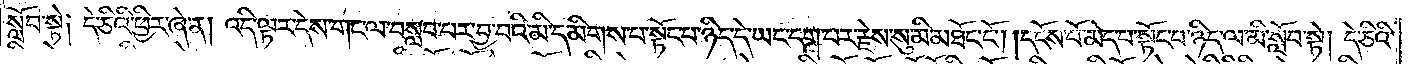སློབ་སྟེ། དེ་ཅིའི་ཕྱིར་ཞེ་ན། འདི་ལྟར་དེས་གང་ལ་བསླབ་པར་བྱ་བའི་མི་དམིགས་པ་སྟོང་པ་ཉིད་དེ་ཡང་དག་པར་རྗེས་སུ་མི་མཐོང་ངོ༌། །དངོས་པོ་མེད་པ་སྟོང་པ་ཉིད་ལ་མི་སློབ་སྟེ། དེ་ཅིའི་
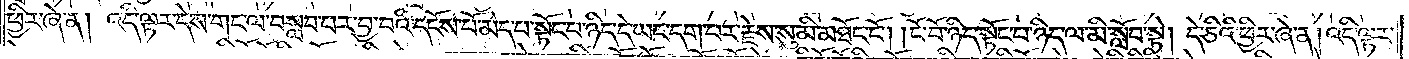ཕྱིར་ཞེ་ན། འདི་ལྟར་དེས་གང་ལ་བསླབ་པར་བྱ་བའི་དངོས་པོ་མེད་པ་སྟོང་པ་ཉིད་དེ་ཡང་དག་པར་རྗེས་སུ་མི་མཐོང་ངོ༌། །ངོ་བོ་ཉིད་སྟོང་པ་ཉིད་ལ་མི་སློབ་སྟེ། དེ་ཅིའི་ཕྱིར་ཞེ་ན། འདི་ལྟར་
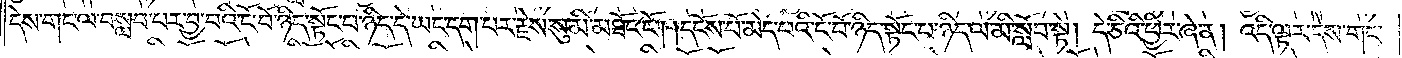དེས་གང་ལ་བསླབ་པར་བྱ་བའི་ངོ་བོ་ཉིད་སྟོང་པ་ཉིད་དེ་ཡང་དག་པར་རྗེས་སུ་མི་མཐོང་ངོ༌། །དངོས་པོ་མེད་པའི་ངོ་བོ་ཉིད་སྟོང་པ་ཉིད་ལ་མི་སློབ་སྟེ། དེ་ཅིའི་ཕྱིར་ཞེ་ན། འདི་ལྟར་དེས་གང་
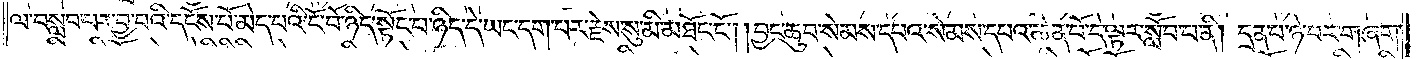ལ་བསླབ་པར་བྱ་བའི་དངོས་པོ་མེད་པའི་ངོ་བོ་ཉིད་སྟོང་པ་ཉིད་དེ་ཡང་དག་པར་རྗེས་སུ་མི་མཐོང་ངོ༌། །བྱང་ཆུབ་སེམས་དཔའ་སེམས་དཔའ་ཆེན་པོ་དེ་ལྟར་སློབ་པ་ནི། དྲན་པ་ཉེ་བར་གཞག་
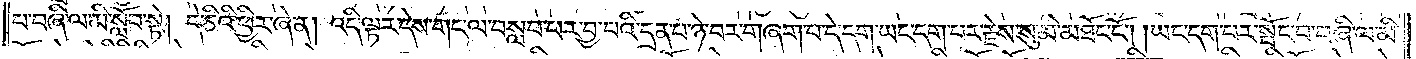པ་བཞི་ལ་མི་སློབ་སྟེ། དེ་ཅིའི་ཕྱིར་ཞེ་ན། འདི་ལྟར་དེས་གང་ལ་བསླབ་པར་བྱ་བའི་དྲན་པ་ཉེ་བར་བཞག་པ་དེ་དག་ཡང་དག་པར་རྗེས་སུ་མི་མཐོང་ངོ༌། །ཡང་དག་པར་སྤོང་བ་བཞི་ལ་མི་
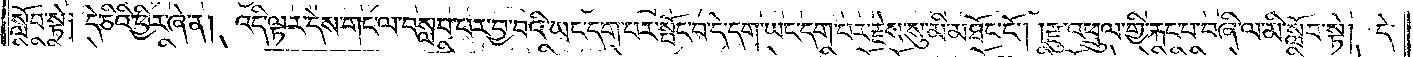སློབ་སྟེ། དེ་ཅིའི་ཕྱིར་ཞེ་ན། འདི་ལྟར་དེས་གང་ལ་བསླབ་པར་བྱ་བའི་ཡང་དག་པར་སྤོང་བ་དེ་དག་ཡང་དག་པར་རྗེས་སུ་མི་མཐོང་ངོ༌། །རྫུ་འཕྲུལ་གྱི་རྐང་པ་བཞི་ལ་མི་སློབ་སྟེ། དེ་
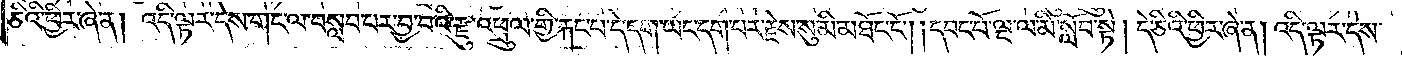ཅིའི་ཕྱིར་ཞེ་ན། འདི་ལྟར་དེས་གང་ལ་བསླབ་པར་བྱ་བའི་རྫུ་འཕྲུལ་གྱི་རྐང་པ་དེ་དག་ཡང་དག་པར་རྗེས་སུ་མི་མཐོང་ངོ༌། །དབང་པོ་ལྔ་ལ་མི་སློབ་སྟེ། དེ་ཅིའི་ཕྱིར་ཞེ་ན། འདི་ལྟར་དེས་
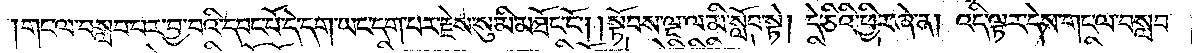གང་ལ་བསླབ་པར་བྱ་བའི་དབང་པོ་དེ་དག་ཡང་དག་པར་རྗེས་སུ་མི་མཐོང་ངོ༌། །སྟོབས་ལྔ་ལ་མི་སློབ་སྟེ། དེ་ཅིའི་ཕྱིར་ཞེ་ན། འདི་ལྟར་དེས་གང་ལ་བསླབ་
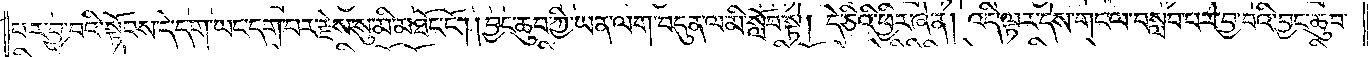པར་བྱ་བའི་སྟོབས་དེ་དག་ཡང་དག་པར་རྗེས་སུ་མི་མཐོང་ངོ༌། །བྱང་ཆུབ་ཀྱི་ཡན་ལག་བདུན་ལ་མི་སློབ་སྟེ། དེ་ཅིའི་ཕྱིར་ཞེ་ན། འདི་ལྟར་དེས་གང་ལ་བསླབ་པར་བྱ་བའི་བྱང་ཆུབ་
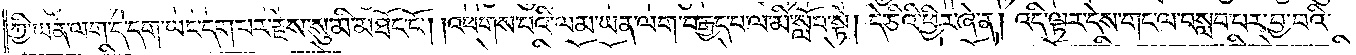ཀྱི་ཡན་ལག་དེ་དག་ཡང་དག་པར་རྗེས་སུ་མི་མཐོང་ངོ༌། །འཕགས་པའི་ལམ་ཡན་ལག་བརྒྱད་པ་ལ་མི་སློབ་སྟེ། དེ་ཅིའི་ཕྱིར་ཞེ་ན། འདི་ལྟར་དེས་གང་ལ་བསླབ་པར་བྱ་བའི་
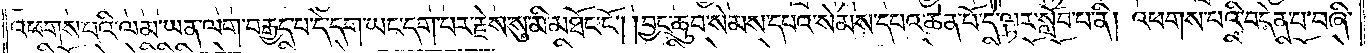འཕགས་པའི་ལམ་ཡན་ལག་བརྒྱད་པ་དེ་དག་ཡང་དག་པར་རྗེས་སུ་མི་མཐོང་ངོ༌། །བྱང་ཆུབ་སེམས་དཔའ་སེམས་དཔའ་ཆེན་པོ་དེ་ལྟར་སློབ་པ་ནི། འཕགས་པའི་བདེན་པ་བཞི་
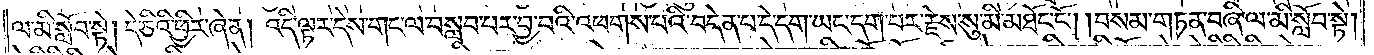ལ་མི་སློབ་སྟེ། དེ་ཅིའི་ཕྱིར་ཞེ་ན། འདི་ལྟར་དེས་གང་ལ་བསླབ་པར་བྱ་བའི་འཕགས་པའི་བདེན་པ་དེ་དག་ཡང་དག་པར་རྗེས་སུ་མི་མཐོང་ངོ༌། །བསམ་གཏན་བཞི་ལ་མི་སློབ་སྟེ།
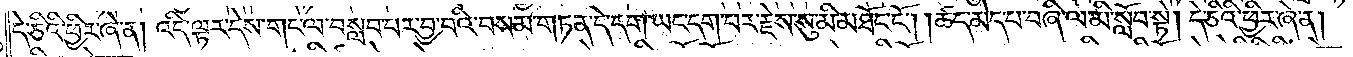དེ་ཅིའི་ཕྱིར་ཞེ་ན། འདི་ལྟར་དེས་གང་ལ་བསླབ་པར་བྱ་བའི་བསམ་གཏན་དེ་དག་ཡང་དག་པར་རྗེས་སུ་མི་མཐོང་ངོ༌། །ཚད་མེད་པ་བཞི་ལ་མི་སློབ་སྟེ། དེ་ཅིའི་ཕྱིར་ཞེ་ན།
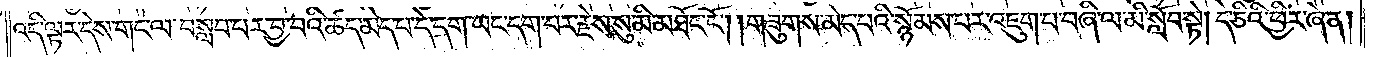འདི་ལྟར་དེས་གང་ལ་བསླབ་པར་བྱ་བའི་ཚད་མེད་པ་དེ་དག་ཡང་དག་པར་རྗེས་སུ་མི་མཐོང་ངོ༌། །གཟུགས་མེད་པའི་སྙོམས་པར་འཇུག་པ་བཞི་ལ་མི་སློབ་སྟེ། དེ་ཅིའི་ཕྱིར་ཞེ་ན།
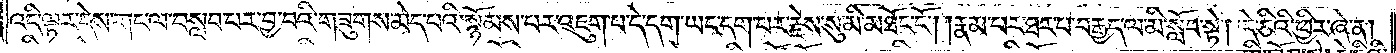འདི་ལྟར་དེས་གང་ལ་བསླབ་པར་བྱ་བའི་གཟུགས་མེད་པའི་སྙོམས་པར་འཇུག་པ་དེ་དག་ཡང་དག་པར་རྗེས་སུ་མི་མཐོང་ངོ༌། །རྣམ་པར་ཐར་པ་བརྒྱད་ལ་མི་སློབ་སྟེ། དེ་ཅིའི་ཕྱིར་ཞེ་ན།
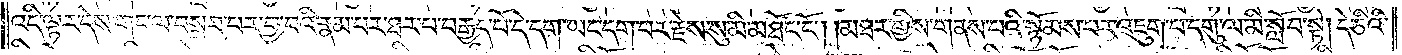འདི་ལྟར་དེས་གང་ལ་བསླབ་པར་བྱ་བའི་རྣམ་པར་ཐར་པ་བརྒྱད་པོ་དེ་དག་ཡང་དག་པ་རྗེས་སུ་མི་མཐོང་ངོ༌། །མཐར་གྱིས་གནས་པའི་སྙོམས་པར་འཇུག་པ་དགུ་ལ་མི་སློབ་སྟེ། དེ་ཅིའི་
